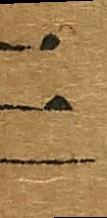一
